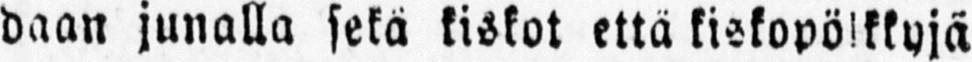daan junalla sekä kiskot että kiskopölkkyjä
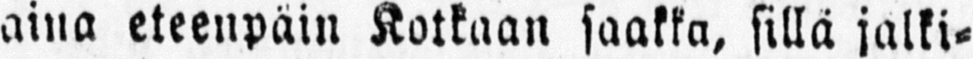aina eteenpäin Kotkaan saakka, sillä jälki-
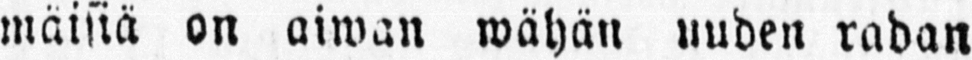mäisiä on aiwan wahan uuden radan
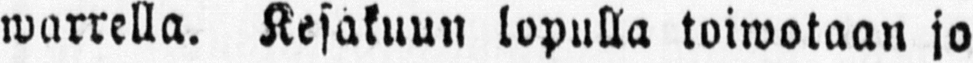warrella. Kesäkuun lopulla toiwotaan jo
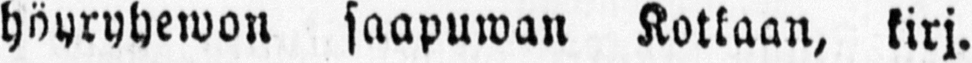höyryhewon saapuwan Kotkaan, kirj.
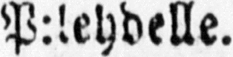P:lehdelle.
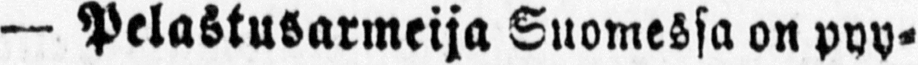— Pelastusarmeija Suomessa on pyy-
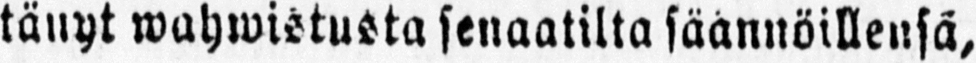tänyt wahwistusta senaatilta säännöillensä,
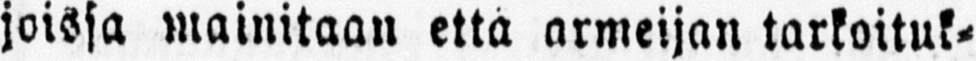joissa mainitaan että armeijan tarkoituk-
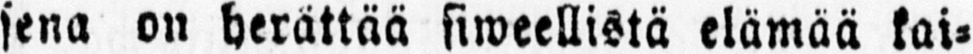sena on herättää siweellistä elämää kai-
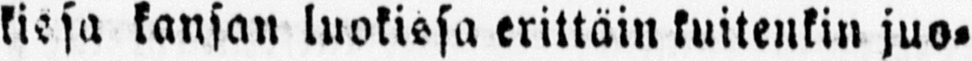kissa kansan luokissa erittäin kuitenkin juo-
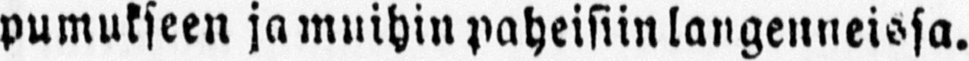pumukseen ja muihin paheisiin langenneissa.
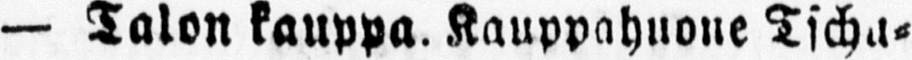— Talon kauppa. Kauppahuone Tscha-
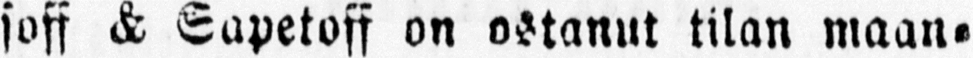soff & Sapetoff on ostanut tilan maan-
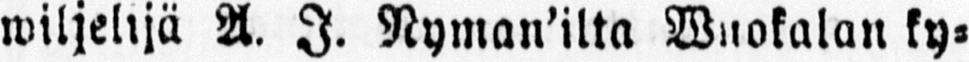wiljelijä A. I. Nyman'ilta Wuokalan ky-
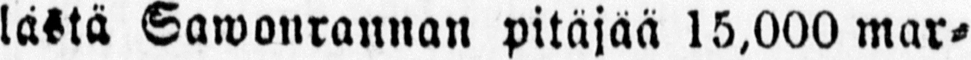lästä Sawonrannan pitäjää 15,000 mar-
